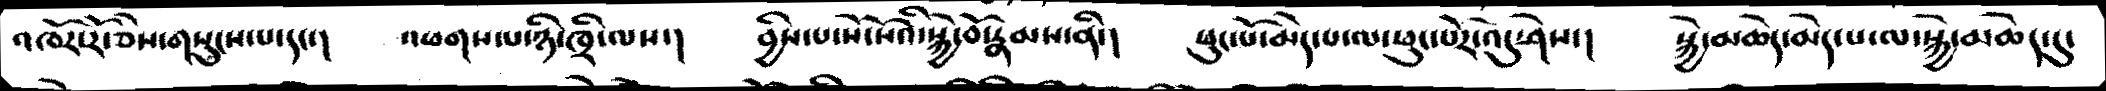འཁོར་རོ་ཅེས་གསུངས་པ་དང་།  འཕགས་པ་ཉི་ཁྲི་ལས་།  བྱིས་པ་སོ་སོའི་སྐྱེ་བོ་རྣམས་ནི་།  ཕུང་པོ་མེད་པ་ལ་ཕུང་པོར་འདུ་ཤེས་།  སྐྱེ་མཆེད་མེད་པ་ལ་སྐྱེ་མཆེད་དུ་
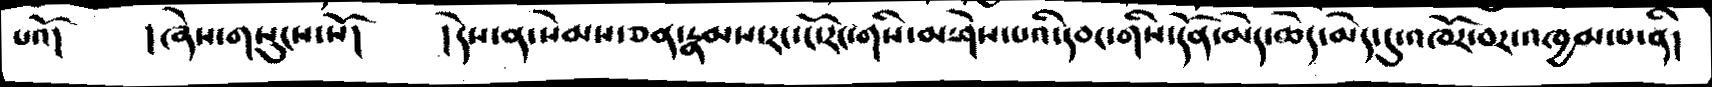པའོ།   །ཞེས་གསུངས་སོ།   ། དེས་ན་སེམས་ཅན་རྣམས་རང་ངོ་རང་གིས་མ་ཤེས་པའི་དབང་གིས་དོན་མེད་ཆེད་མེད་དུ་འཁོར་བར་འཁྱམ་པ་ནི།
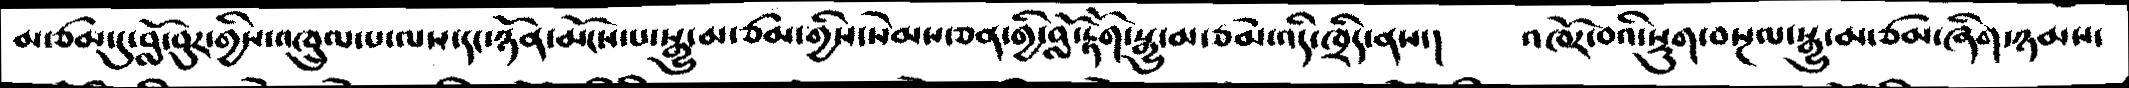མ་ཙམ་དུ་བློ་བུར་གྱིས་འཁྲུལ་པ་ལས་དང་ཉོན་མོངས་པ་སྒྱུ་མ་ཙམ་གྱིས་སེམས་ཅན་གྱི་བློ་རྟོག་སྒྱུ་མ་ཙམ་འདི་ཁྲིད་ནས་།   འཁོར་བའི་སྡུག་བསྔལ་སྒྱུ་མ་ཙམ་ཞིག་ཉམས་
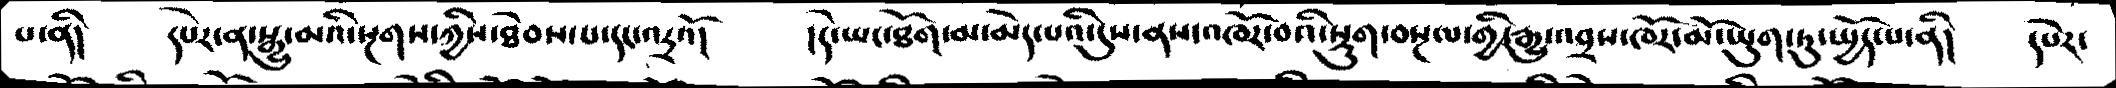པ་ནི།   དཔེར་ན་སྒྱུ་མའི་སྔགས་ཀྱིས་ཐེབས་པ་དང་འདྲའོ།  །དེ་ཡང་ཐོག་མ་མེད་པའི་དུས་ནས་འཁོར་བའི་སྡུག་བསྔལ་གྱི་རྒྱུ་འབྲས་འཁོར་མོ་ཡུག་ཏུ་སྤྱོད་པ་ནི།   དཔེར་
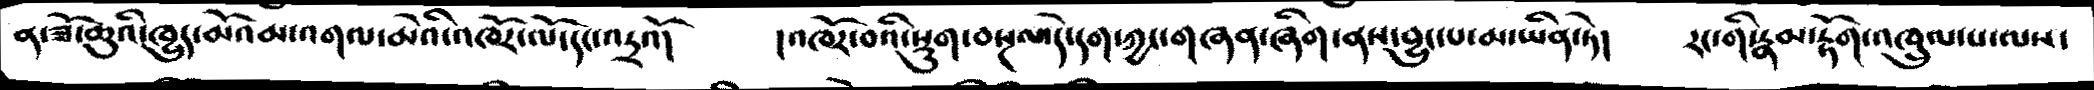ན་ཟོ་ཆུའི་ཁྱུད་མོའམ་འགལ་མེའི་འཁོར་ལོ་དང་འདྲའོ།  །འཁོར་བའི་སྡུག་བསྔལ་དེ་དག་ཀྱང་གཞན་ཞིག་ནས་བྱུང་པ་མ་ཡིན་ཏེ།  རང་གི་རྣམ་རྟོག་འཁྲུལ་པ་ལས་
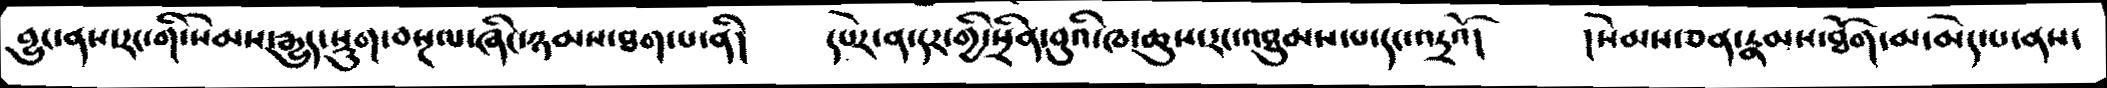བྱུང་ནས་རང་གི་སེམས་རྒྱུད་སྡུག་བསྔལ་ཞིང་ཉམས་ཐག་པ་ནི།   དཔེར་ན་དར་གྱི་སྲིན་བུའི་ཁ་ཆུས་རང་འཐུམས་པ་དང་འདྲའོ།   །སེམས་ཅན་རྣམས་ཐོག་མ་མེད་པ་ནས་
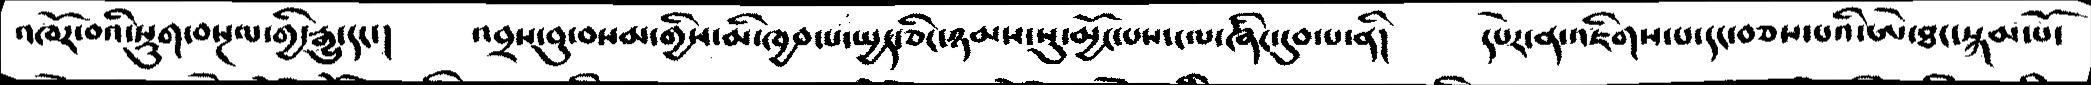འཁོར་བའི་སྡུག་བསྔལ་གྱི་རྒྱུ་དང་།   འབྲས་བུ་བསམ་གྱིས་མི་ཁྱབ་པ་སྤྱད་ཅིང་ཉམས་སུ་མྱོང་པས་ངལ་ཞིང་དུབ་པ་ནི།   དཔེར་ན་འཇིགས་པ་དང་བཅས་པའི་ཨེ་ཐང་སྐམ་པོ་
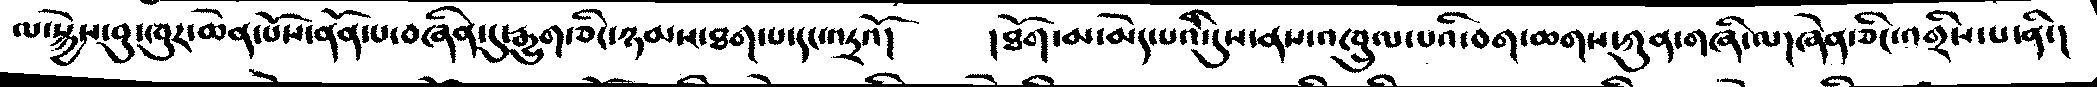ལ་སྐྱེས་བུ་ཁུར་ཆེན་པོས་ནོན་པ་བཞིན་དུ་རྒྱུག་ཅིང་ཉམས་ཐག་པ་དང་འདྲའོ།   །ཐོག་མ་མེད་པའི་དུས་ནས་འཁྲུལ་པའི་བག་ཆགས་ཀུན་གཞི་ལ།ཞེན་ཅིང་འགྲིས་པ་ནི་།
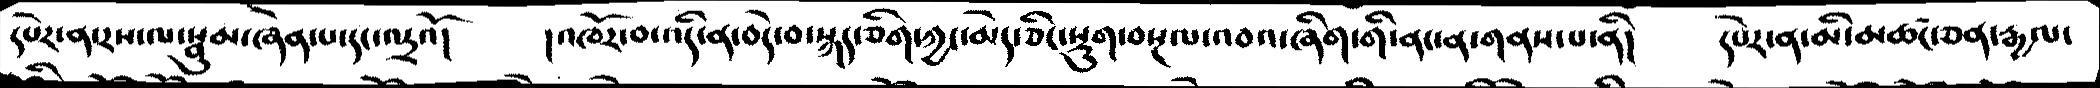དཔེར་ན་རས་ལ་སྣུམ་ཞེན་པ་དང་འདྲའོ།   །འཁོར་བ་འདི་ན་བདེ་བ་སྐད་ཅིག་ཀྱང་མེད་ཅིང་སྡུག་བསྔལ་འབའ་ཞིག་གི་ནང་ན་གནས་པ་ནི།   དཔེར་ན་མི་མཚང་ཅན་རྒྱལ་
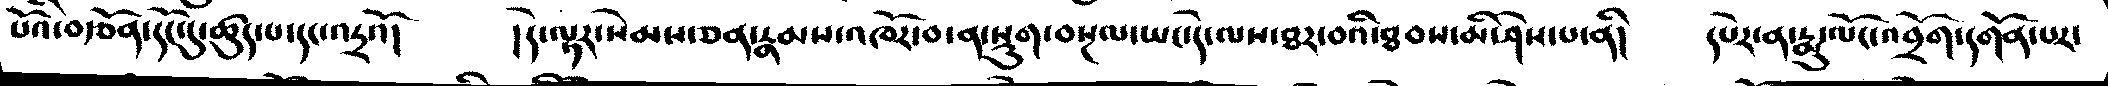པོའི་བརྩོན་དོང་དུ་ཚུད་པ་དང་འདྲའོ།    །དེ་ལྟར་སེམས་ཅན་རྣམས་འཁོར་བ་ན་སྡུག་བསྔལ་ཡང་དེ་ལས་ཐར་བའི་ཐབས་མི་ཤེས་པ་ནི།   དཔེར་ན་རྨུ་ལོང་འབྲོག་དགོན་པར་
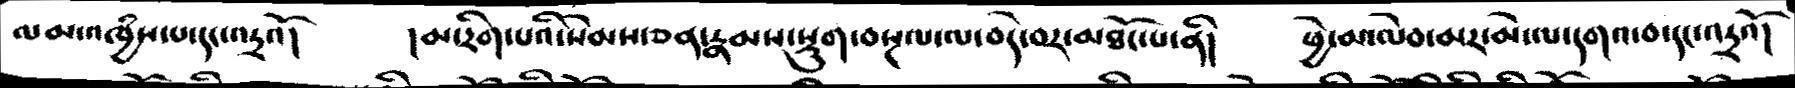ལམ་འཁྱཾས་པ་དང་འདྲའོ།   །མ་རིག་པའི་སེམས་ཅན་རྣམས་སྡུག་བསྔལ་ལ་བདེ་བར་མཐོང་པ་ནི།   ཕྱེ་མ་ལེབ་མར་མེ་ལ་དགའ་བ་དང་འདྲའོ།
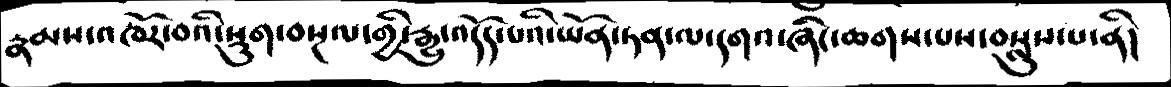རྣམས་འཁོར་བའི་སྡུག་བསྔལ་གྱི་རྒྱུ་འདོད་པའི་ཡོན་ཏན་ལ་དགའ་ཞིང་ཆགས་པས་བསླུས་པ་ནི།
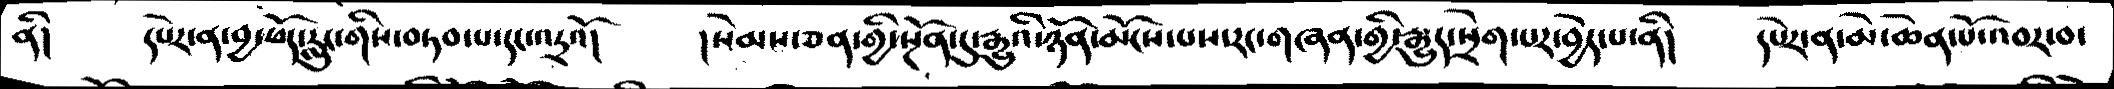ནི།   དཔེར་ན་བྱ་ཕོད་རླུང་གིས་བཏབ་པ་དང་འདྲའོ།   །སེམས་ཅན་གྱི་སྔོན་དུ་ཉོན་མོངས་པས་རང་གཞན་གྱི་རྒྱུད་སྲེག་པར་བྱེད་པ་ནི།   དཔེར་ན་མེ་ཆེན་པོ་འབར་བ་
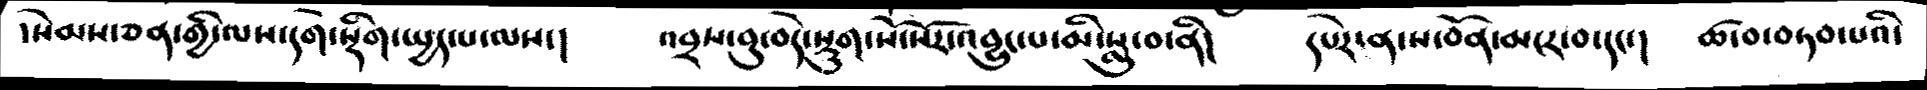་སེམས་ཅན་གྱི་ལས་དགེ་སྡིག་སྤྱད་པ་ལས་།   འབྲས་བུ་བདེ་སྡུག་སོ་སོར་འབྱུང་པ་མི་སླུ་བ་ནི།   དཔེར་ན་ས་བོན་མངར་བ་དང་།  ཚ་བ་བཏབ་པའི་
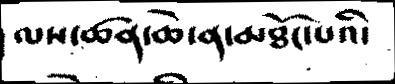ལས་ཚན་ཆེ་ན་མཐོང་པའི་
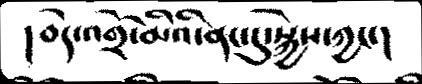།བདེ་འགྲོ་མིའི་ནང་དུ་སྐྱེས་ཀྱང་།
